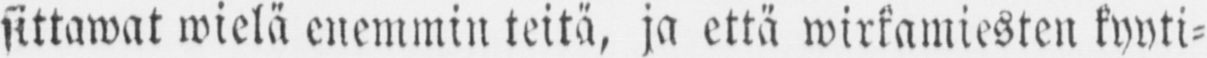sittawat wielä enemmin teitä, ja että wirkamiesten kyyti-
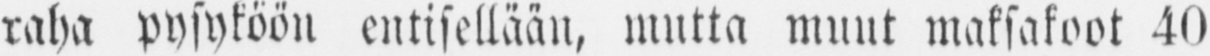raha pysyköön entisellään, mutta muut maksakoot 40
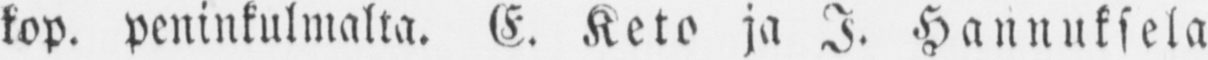kop. peninkulmalta. E. Keto ja I. Hannuksela
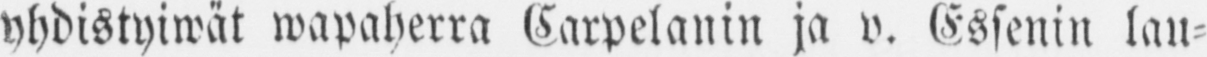yhdistyiwät wapaherra Carpelanin ja v. Essenin lau-
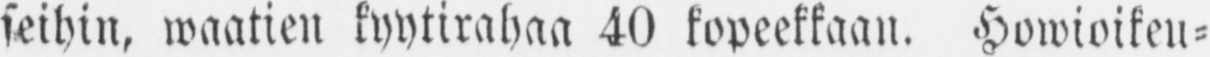seihin, waatien kyytirahaa 40 kopeekkaan. Howioikeu-
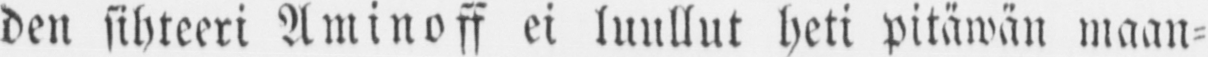den sihteeri Aminoff ei luullut heti pitäwän maan-
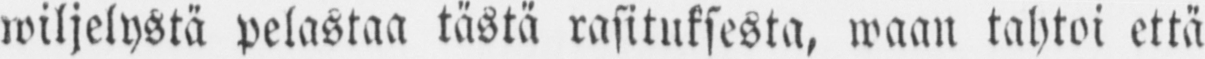wiljelystä pelastaa tästä rasituksesta, waan tahtoi että
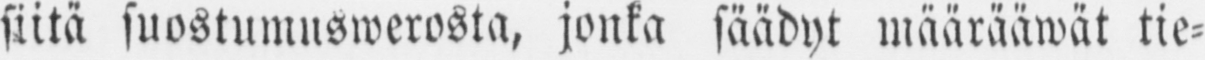siitä suostumuswerosta, jonka säädyt määrääwät tie-
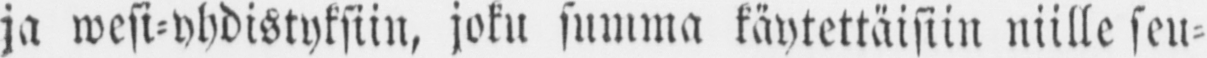ja wesi-yhdistyksiin, joku summa käytettäisiin niille seu-
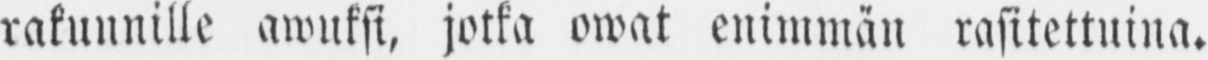rakunnille awuksi, jotka owat enimmän rasitettuina.
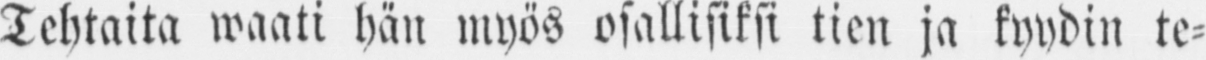Tehtaita waati hän myös osallisiksi tien ja kyydin te-
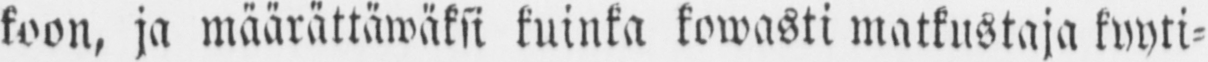koon, ja määrättäwäksi kuinka kowasti matkustaja kyyti-
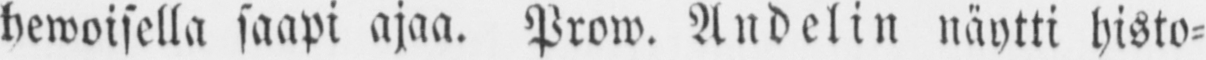hewoisella saapi ajaa. Prow. Andelin näytti histo-
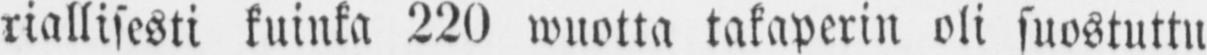riallisesti kuinka 220 wuotta takaperin oli suostuttu
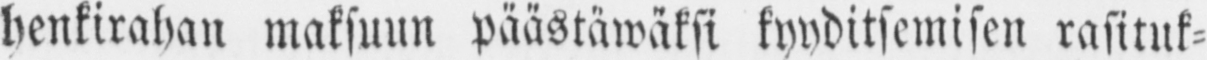henkirahan maksuun päästäwäksi kyyditsemisen rasituk-
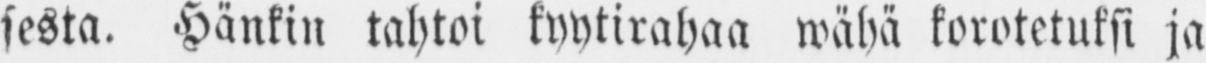sesta. Hänkin tahtoi kyytirahaa wähä korotetuksi ja
